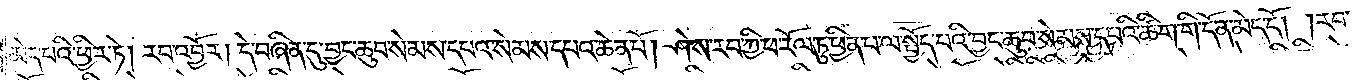མེད་པའི་ཕྱིར་ཏེ། རབ་འབྱོར། དེ་བཞིན་དུ་བྱང་ཆུབ་སེམས་དཔའ་སེམས་དཔའ་ཆེན་པོ། ཤེས་རབ་ཀྱི་ཕ་རོལ་ཏུ་ཕྱིན་པ་ལ་སྤྱོད་པའི་བྱང་ཆུབ་སེམས་དཔའི་ཚིག་གི་དོན་མེད་དོ། །རབ་
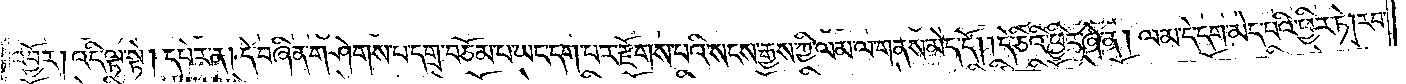འབྱོར། འདི་ལྟ་སྟེ། དཔེར་ན། དེ་བཞིན་གཤེགས་པ་དགྲ་བཅོམ་པ་ཡང་དག་པར་རྫོགས་པའི་སངས་རྒྱས་ཀྱི་ལམ་ལ་གནས་མེད་དོ། །དེ་ཅིའི་ཕྱིར་ཞེ་ན། ལམ་དེ་དག་མེད་པའི་ཕྱིར་ཏེ། རབ་
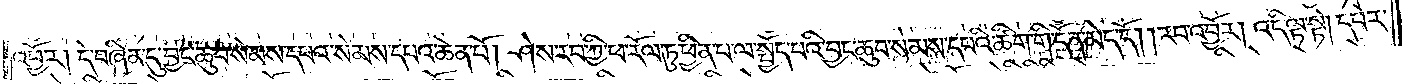འབྱོར། དེ་བཞིན་དུ་བྱང་ཆུབ་སེམས་དཔའ་སེམས་དཔའ་ཆེན་པོ། ཤེས་རབ་ཀྱི་ཕ་རོལ་ཏུ་ཕྱིན་པ་ལ་སྤྱོད་པའི་བྱང་ཆུབ་སེམས་དཔའི་ཚིག་གི་དོན་མེད་དོ། །རབ་འབྱོར། འདི་ལྟ་སྟེ། དཔེར་
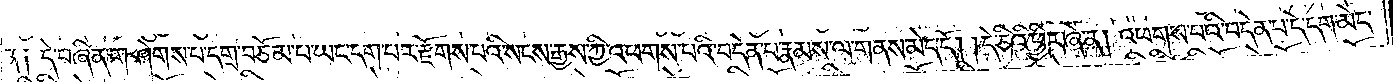ན། དེ་བཞིན་གཤེགས་པ་དགྲ་བཅོམ་པ་ཡང་དག་པར་རྫོགས་པའི་སངས་རྒྱས་ཀྱི་འཕགས་པའི་བདེན་པ་རྣམས་ལ་གནས་མེད་དོ། །དེ་ཅིའི་ཕྱིར་ཞེ་ན། འཕགས་པའི་བདེན་པ་དེ་དག་མེད་
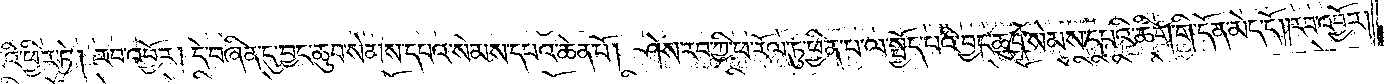པའི་ཕྱིར་ཏེ། རབ་འབྱོར། དེ་བཞིན་དུ་བྱང་ཆུབ་སེམས་དཔའ་སེམས་དཔའ་ཆེན་པོ། ཤེས་རབ་ཀྱི་ཕ་རོལ་ཏུ་ཕྱིན་པ་ལ་སྤྱོད་པའི་བྱང་ཆུབ་སེམས་དཔའི་ཚིག་གི་དོན་མེད་དོ། །རབ་འབྱོར།
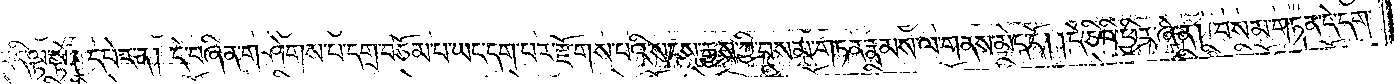འདི་ལྟ་སྟེ། དཔེར་ན། དེ་བཞིན་གཤེགས་པ་དགྲ་བཅོམ་པ་ཡང་དག་པར་རྫོགས་པའི་སངས་རྒྱས་ཀྱི་བསམ་གཏན་རྣམས་ལ་གནས་མེད་དོ། །དེ་ཅིའི་ཕྱིར་ཞེ་ན། བསམ་གཏན་དེ་དག་
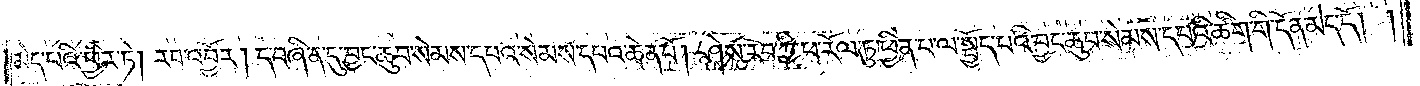མེད་པའི་ཕྱིར་ཏེ། རབ་འབྱོར། དེ་བཞིན་དུ་བྱང་ཆུབ་སེམས་དཔའ་སེམས་དཔའ་ཆེན་པོ། ཤེས་རབ་ཀྱི་ཕ་རོལ་ཏུ་ཕྱིན་པ་ལ་སྤྱོད་པའི་བྱང་ཆུབ་སེམས་དཔའི་ཚིག་གི་དོན་མེད་དོ། །
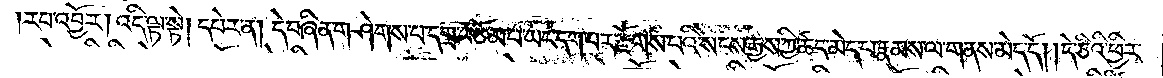རབ་འབྱོར། འདི་ལྟ་སྟེ། དཔེར་ན། དེ་བཞིན་གཤེགས་པ་དགྲ་བཅོམ་པ་ཡང་དག་པར་རྫོགས་པའི་སངས་རྒྱས་ཀྱི་ཚད་མེད་པ་རྣམས་ལ་གནས་མེད་དོ། །དེ་ཅིའི་ཕྱིར་
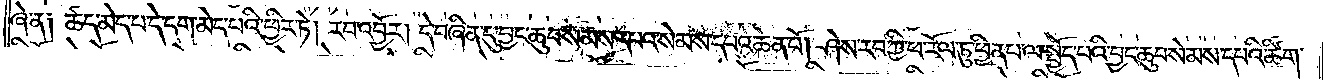ཞེ་ན། ཚད་མེད་པ་དེ་དག་མེད་པའི་ཕྱིར་ཏེ། རབ་འབྱོར། དེ་བཞིན་དུ་བྱང་ཆུབ་སེམས་དཔའ་སེམས་དཔའ་ཆེན་པོ། ཤེས་རབ་ཀྱི་ཕ་རོལ་ཏུ་ཕྱིན་པ་ལ་སྤྱོད་པའི་བྱང་ཆུབ་སེམས་དཔའི་ཚིག་
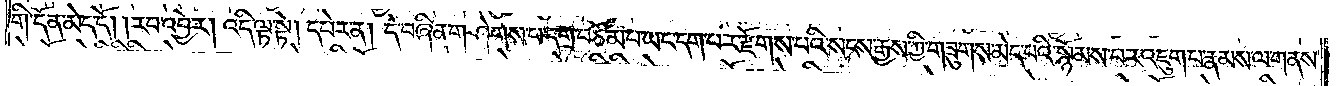གི་དོན་མེད་དོ། །རབ་འབྱོར། འདི་ལྟ་སྟེ། དཔེར་ན། དེ་བཞིན་གཤེགས་པ་དགྲ་བཅོམ་པ་ལ་ཡང་དག་པར་རྫོགས་པའི་སངས་རྒྱས་ཀྱི་གཟུགས་མེད་པའི་སྙོམས་པར་འཇུག་པ་རྣམས་ལ་གནས་
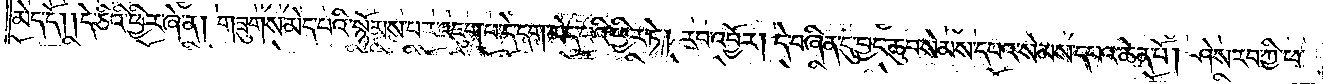མེད་དོ། །དེ་ཅིའི་ཕྱིར་ཞེ་ན། གཟུགས་མེད་པའི་སྙོམས་པར་འཇུག་པ་དེ་དག་མེད་པའི་ཕྱིར་ཏེ། རབ་འབྱོར། དེ་བཞིན་དུ་བྱང་ཆུབ་སེམས་དཔའ་སེམས་དཔའ་ཆེན་པོ། ཤེས་རབ་ཀྱི་ཕ་
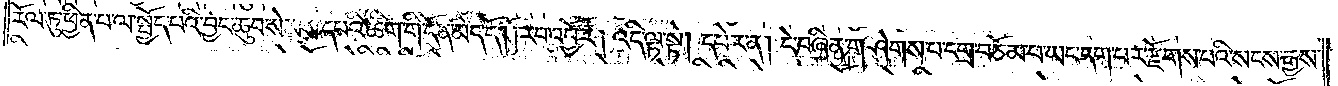རོལ་ཏུ་ཕྱིན་པ་ལ་སྤྱོད་པའི་བྱང་ཆུབ་སེམས་དཔའི་ཚིག་གི་དོན་མེད་དོ། །རབ་འབྱོར། འདི་ལྟ་སྟེ། དཔེར་ན། དེ་བཞིན་གཤེགས་པ་དགྲ་བཅོམ་པ་ཡང་དག་པར་རྫོགས་པའི་སངས་རྒྱས་
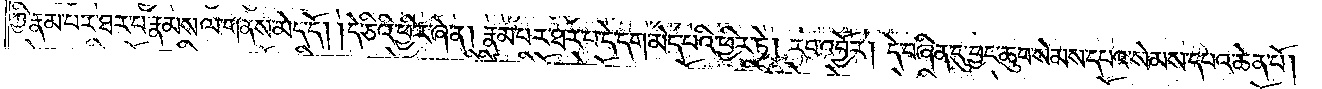ཀྱི་རྣམ་པར་ཐར་པ་རྣམས་ལ་གནས་མེད་དོ། །དེ་ཅིའི་ཕྱིར་ཞེ་ན། རྣམ་པར་ཐར་པ་དེ་དག་མེད་པའི་ཕྱིར་ཏེ། རབ་འབྱོར། དེ་བཞིན་དུ་བྱང་ཆུབ་སེམས་དཔའ་སེམས་དཔའ་ཆེན་པོ།
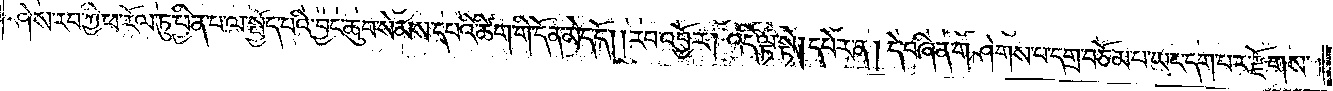ཤེས་རབ་ཀྱི་ཕ་རོལ་ཏུ་ཕྱིན་པ་ལ་སྤྱོད་པའི་བྱང་ཆུབ་སེམས་དཔའི་ཚིག་གི་དོན་མེད་དོ། །རབ་འབྱོར། འདི་ལྟ་སྟེ། དཔེར་ན། དེ་བཞིན་གཤེགས་པ་དགྲ་བཅོམ་པ་ཡང་དག་པར་རྫོགས་
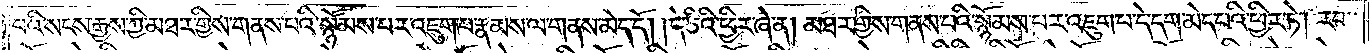པའི་སངས་རྒྱས་ཀྱི་མཐར་གྱིས་གནས་པའི་སྙོམས་པར་འཇུག་པ་རྣམས་ལ་གནས་མེད་དོ། །དེ་ཅིའི་ཕྱིར་ཞེ་ན། མཐར་གྱིས་གནས་པའི་སྙོམས་པར་འཇུག་པ་དེ་དག་མེད་པའི་ཕྱིར་ཏེ། རབ་
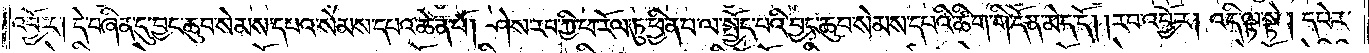འབྱོར། དེ་བཞིན་དུ་བྱང་ཆུབ་སེམས་དཔའ་སེམས་དཔའ་ཆེན་པོ། ཤེས་རབ་ཀྱི་ཕ་རོལ་ཏུ་ཕྱིན་པ་ལ་སྤྱོད་པའི་བྱང་ཆུབ་སེམས་དཔའི་ཚིག་གི་དོན་མེད་དོ། །རབ་འབྱོར། འདི་ལྟ་སྟེ། དཔེར་
